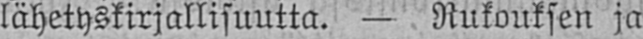lähetyskirjallisuutta. — Rukouksen ja
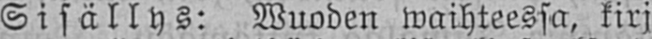Sisällys: Wuoden waihteessa, kirj
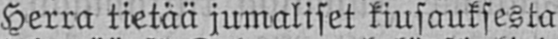Herra tietää jumaliset kiusauksesta
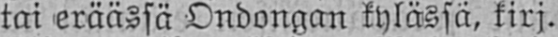tai eräässä Ondongan kylässä, kirj.
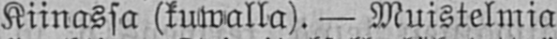Kiinassa (luwalla). — Muistelmia
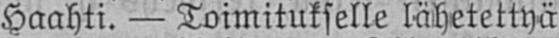Haahti. — Toimitukselle lähetettyä
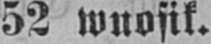52 wuosik.
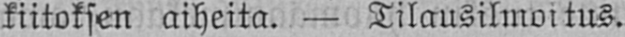kiitoksen aiheita. — Tilausilmoitus.
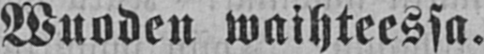Wuoden waihteessa.
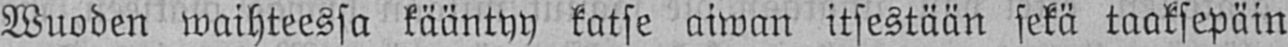Wuoden waihteessa kääntyy katse aiwan itsestään sekä taaksepäin
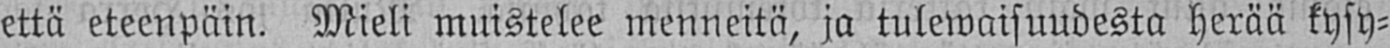että eteenpäin. Mieli muistelee menneitä, ja tulewaisuudesta herää kysy-
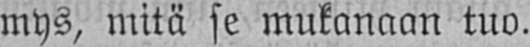mys, mitä se mukanaan tuo.
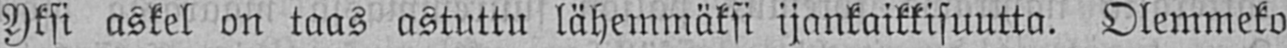Yksi askel on taas astuttu lähemmäksi ijankaikkisuutta. Olemmeko
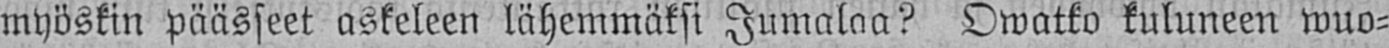myöskin päässeet askeleen lähemmäksi Jumalaa? Owatko kuluneen wuo-
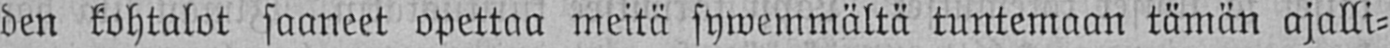den kohtalot saaneet opettaa meitä sywemmältä tuntemaan tämän ajalli-
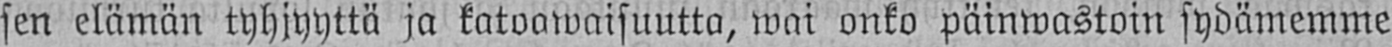sen elämän tyhjyyttä ja katoawaisuutta, wai onko päinwastoin sydämemme
